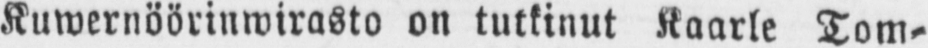Kuwernöörinwirasto on tutkinut Kaarle Tom-
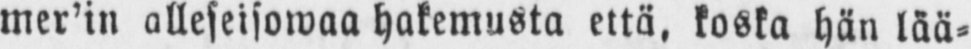mer'in alleseisowaa hakemusta että, koska hän lää-
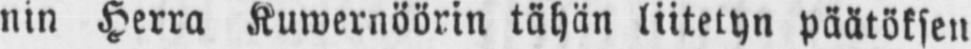nin Herra Kuwernöörin tähän liitetyn päätöksen
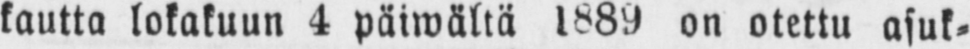kautta lokakuun 4 päiwältä 1889 on otettu asuk-
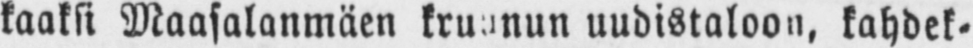kaaksi Maasalanmäen kruunun uudistaloon, kahdek-
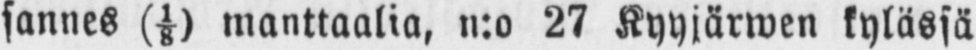sannes (⅛) manttaalia, n:o 27 Kyyjärwen kylässä
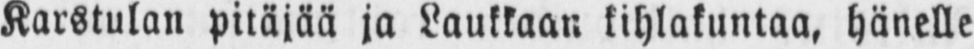Karstulan pitäjää ja Laukkaan kihlakuntaa, hänelle
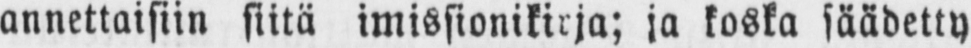annettaisiin siitä imissionikirja; ja koska säädetty
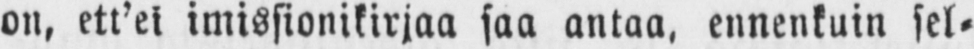on, ett'ei imissionikirjaa saa antaa, ennenkuin sel-
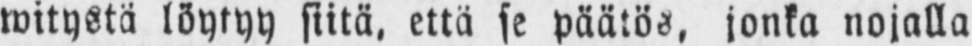witystä löytyy siitä, että se päätös, jonka nojalla
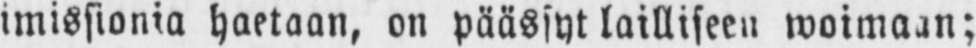imissionia haetaan, on päässyt lailliseen woimaan;
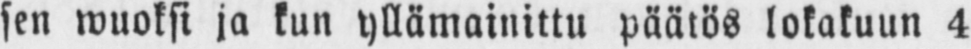sen wuoksi ja kun yllämainittu päätös lokakuun 4
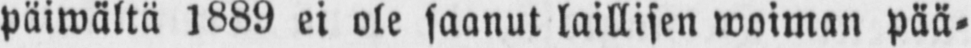päiwältä 1889 ei ole saanut laillisen woiman pää-
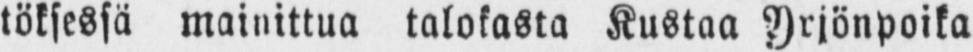töksessä mainittua talokasta Kustaa Yrjönpoika
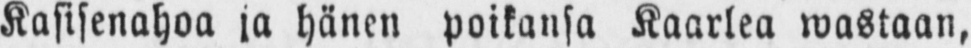Kasisenahoa ja hänen poikansa Kaarlea wastaan,
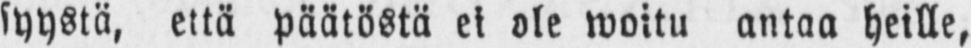syystä, että päätöstä ei ole woitu antaa heille,
